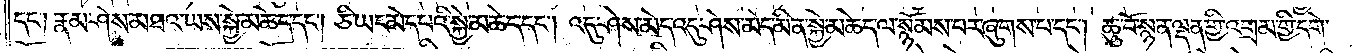དང༌། རྣམ་ཤེས་མཐའ་ཡས་སྐྱེ་མཆེད་དང༌། ཅི་ཡང་མེད་པའི་སྐྱེ་མཆེད་དང༌། འདུ་ཤེས་མེད་འདུ་ཤེས་མེད་མིན་སྐྱེ་མཆེད་ལ་སྙོམས་པར་ཞུགས་པ་དང༌། ཆུ་བོ་སྙན་ལྡན་གྱི་འགྲམ་གྱི་དགེ་
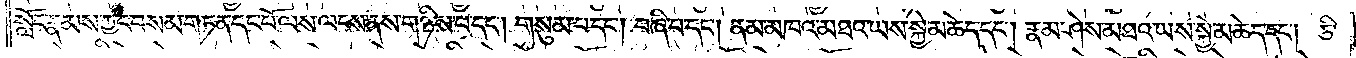སློང་རྣམས་ཀྱང་བསམ་གཏན་དང་པོ་ལས་ལངས་ནས་གཉིས་པ་དང༌། གསུམ་པ་དང༌། བཞི་པ་དང༌། ནམ་མཁའ་མཐའ་ཡས་སྐྱེ་མཆེད་དང༌། རྣམ་ཤེས་མཐའ་ཡས་སྐྱེ་མཆེད་དང༌། ཅི་
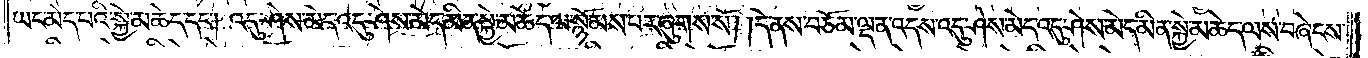ཡང་མེད་པའི་སྐྱེ་མཆེད་དང༌། འདུ་ཤེས་མེད་འདུ་ཤེས་མེད་མིན་སྐྱེ་མཆེད་ལ་སྙོམས་པར་ཞུགས་སོ། །དེ་ནས་བཅོམ་ལྡན་འདས་འདུ་ཤེས་མེད་འདུ་ཤེས་མེད་མིན་སྐྱེ་མཆེད་ལས་བཞེངས་
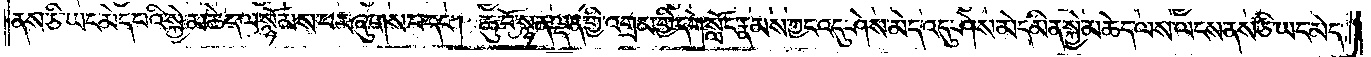ནས་ཅི་ཡང་མེད་པའི་སྐྱེ་མཆེད་ལ་སྙོམས་པར་ཞུགས་པ་དང༌། ཆུ་བོ་སྙན་ལྡན་གྱི་འགྲམ་གྱི་དགེ་སློང་རྣམས་ཀྱང་འདུ་ཤེས་མེད་འདུ་ཤེས་མེད་མིན་སྐྱེ་མཆེད་ལས་ལངས་ནས་ཅི་ཡང་མེད་
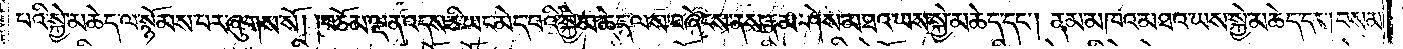པའི་སྐྱེ་མཆེད་ལ་སྙོམས་པར་ཞུགས་སོ། །བཅོམ་ལྡན་འདས་ཅི་ཡང་མེད་པའི་སྐྱེ་མཆེད་ལས་བཞེངས་ནས་རྣམ་ཤེས་མཐའ་ཡས་སྐྱེ་མཆེད་དང༌། ནམ་མཁའ་མཐའ་ཡས་སྐྱེ་མཆེད་དང༌། བསམ་
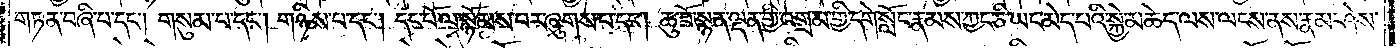གཏན་བཞི་པ་དང༌། གསུམ་པ་དང༌། གཉིས་པ་དང༌། དང་པོ་ལ་སྙོམས་པར་ཞུགས་པ་དང༌། ཆུ་བོ་སྙན་ལྡན་གྱི་འགྲམ་གྱི་དགེ་སློང་རྣམས་ཀྱང་ཅི་ཡང་མེད་པའི་སྐྱེ་མཆེད་ལས་ལངས་ནས་རྣམ་ཤེས་
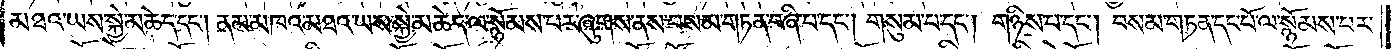མཐའ་ཡས་སྐྱེ་མཆེད་དང༌། ནམ་མཁའ་མཐའ་ཡས་སྐྱེད་མཆེད་ལ་སྙོམས་པར་ཞུགས་ནས་བསམ་གཏན་བཞི་པ་དང༌། གསུམ་པ་དང༌། གཉིས་པ་དང༌། བསམ་གཏན་དང་པོ་ལ་སྙོམས་པར་
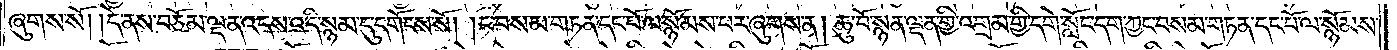ཞུགས་སོ། །དེ་ནས་བཅོམ་ལྡན་འདས་འདི་སྙམ་དུ་དགོངས་སོ། །ང་བསམ་གཏན་དང་པོ་ལ་སྙོམས་པར་ཞུགས་ན། ཆུ་བོ་སྙན་ལྡན་གྱི་འགྲམ་གྱི་དགེ་སློང་དག་ཀྱང་བསམ་གཏན་དང་པོ་ལ་སྙོམས་
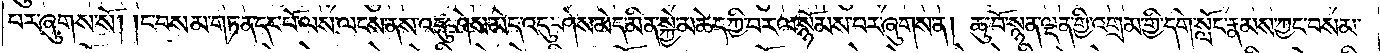པར་ཞུགས་སོ། །ང་བསམ་གཏན་དང་པོ་ལས་ལངས་ནས་འདུ་ཤེས་མེད་འདུ་ཤེས་མེད་མིན་སྐྱེ་མཆེད་ཀྱི་བར་ལ་སྙོམས་པར་ཞུགས་ན། ཆུ་བོ་སྙན་ལྡན་གྱི་འགྲམ་གྱི་དགེ་སློང་རྣམས་ཀྱང་བསམ་
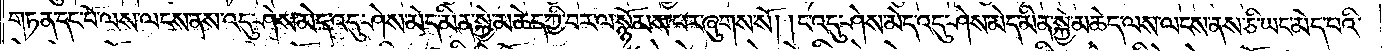གཏན་དང་པོ་ལས་ལངས་ནས་འདུ་ཤེས་མེད་འདུ་ཤེས་མེད་མིན་སྐྱེ་མཆེད་ཀྱི་བར་ལ་སྙོམས་པར་ཞུགས་སོ། །ང་འདུ་ཤེས་མེད་འདུ་ཤེས་མེད་མིན་སྐྱེ་མཆེད་ལས་ལངས་ནས་ཅི་ཡང་མེད་པའི་
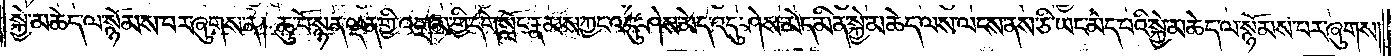སྐྱེ་མཆེད་ལ་སྙོམས་པར་ཞུགས་ན། ཆུ་བོ་སྙན་ལྡན་གྱི་འགྲམ་གྱི་དགེ་སློང་རྣམས་ཀྱང་འདུ་ཤེས་མེད་འདུ་ཤེས་མེད་མིན་སྐྱེ་མཆེད་ལས་ལངས་ནས་ཅི་ཡང་མེད་པའི་སྐྱེ་མཆེད་ལ་སྙོམས་པར་ཞུགས།
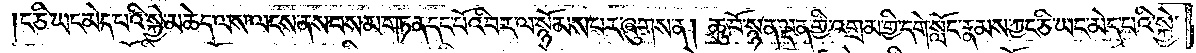ང་ཅི་ཡང་མེད་པའི་སྐྱེ་མཆེད་ལས་ལངས་ནས་བསམ་གཏན་དང་པོའི་བར་ལ་སྙོམས་པར་ཞུགས་ན། ཆུ་བོ་སྙན་ལྡན་གྱི་འགྲམ་གྱི་དགེ་སློང་རྣམས་ཀྱང་ཅི་ཡང་མེད་པའི་སྐྱེ་
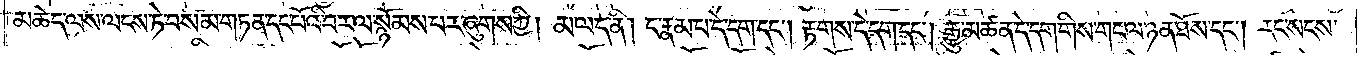མཆེད་ལས་ལངས་ཏེ་བསམ་གཏན་དང་པོའི་བར་ལ་སྙོམས་པར་ཞུགས་ཀྱི། མ་ལ་ད་ནི། ང་རྣམ་པ་དེ་དག་དང༌། རྟགས་དེ་དག་དང༌། རྒྱུ་མཚན་དེ་དག་གིས་གང་ལ་ཉན་ཐོས་དང༌། རང་སངས་
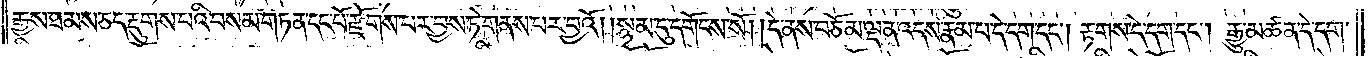རྒྱས་ཐམས་ཅད་རྡུགས་པའི་བསམ་གཏན་དང་པོ་རྫོགས་པར་བྱས་ཏེ་གནས་པར་བྱའོ། །སྙམ་དུ་དགོངས་སོ། །དེ་ནས་བཅོམ་ལྡན་འདས་རྣམ་པ་དེ་དག་དང༌། རྟགས་དེ་དག་དང༌། རྒྱུ་མཚན་དེ་དག་
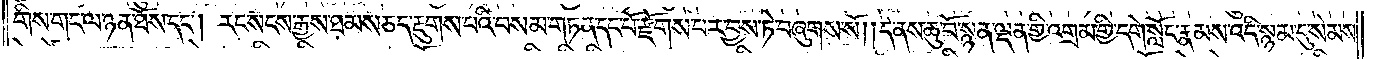གིས་གང་ལ་ཉན་ཐོས་དང༌། རང་སངས་རྒྱས་ཐམས་ཅད་རྡུགས་པའི་བསམ་གཏན་དང་པོ་རྫོགས་པར་བྱས་ཏེ་བཞུགས་སོ། །དེ་ནས་ཆུ་བོ་སྙན་ལྡན་གྱི་འགྲམ་གྱི་དགེ་སློང་རྣམས་འདི་སྙམ་དུ་སེམས་
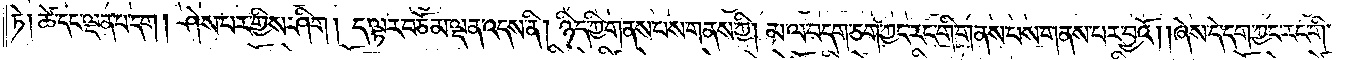ཏེ། ཚེ་དང་ལྡན་པ་དག། ཤེས་པར་གྱིས་ཤིག། ད་ལྟར་བཅོམ་ལྡན་འདས་ནི། ཉིད་ཀྱི་གནས་པས་གནས་ཀྱི། མ་ལ་བདག་ཅག་ཀྱང་རང་གི་གནས་པས་གནས་པར་བྱའོ། །ཞེས་དེ་དག་ཀྱང་རང་གི་
